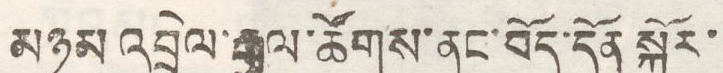མཉམ འབྲེལ་རྒྱལ་ཚོགས་ནང་བོད་དོན་སྐོར་
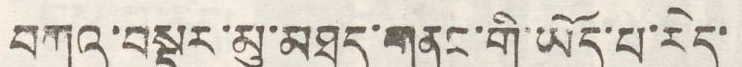བཀའ་བསྡུར་མི་མཐུད་གནང་གི་ཡོད་པ་རེད་
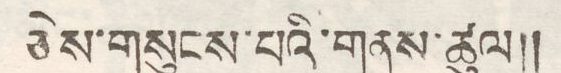ཅེས་གསུངས་པའི་གནས་ཚུལ།།
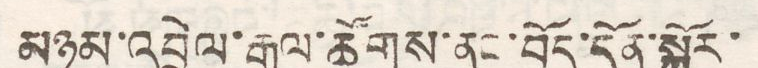མཉམ་འབྲེལ་རྒྱལ་ཚོགས་ནང་བོད་དོན་སྐོར་
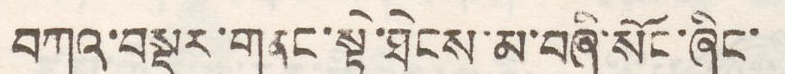བཀའ་བསྡུར་གནང་སྟེ་ཐེངས་མ་བཞི་སོང་ཞིང་
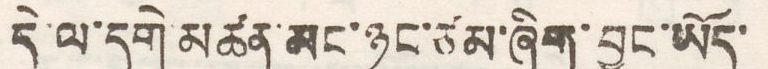དེ་ལ་དགེ་མཚན་མང་ཉུང་ཙམ་ཞིག་བྱུང་ཡོད་
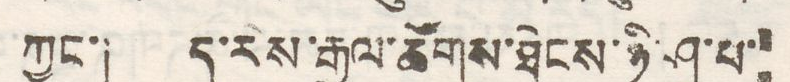ཀྱང་། ད་རེས་རྒྱལ་ཚོགས་ཐེངས་ཉི་ཤུ་པ་
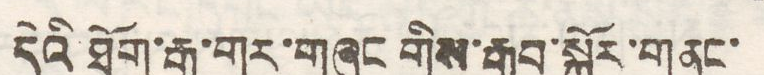དེའི་ཐོག་རྒྱ་གར་གཞུང གིས་རྒྱབ་སྐྱོར་གནང་
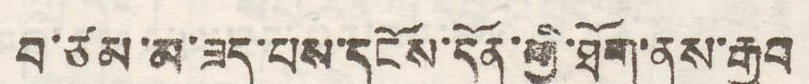བ་ཙམ་མ་ཟད་པས་དངོས་དོན་གྱོ་ཐོག་ནས་རྒྱབ
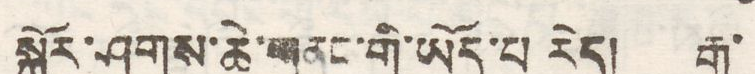སྐྱོར་ཤུགས་ཆེ་གནང་གི་ཡོད་པ རེད། རྒྱ་
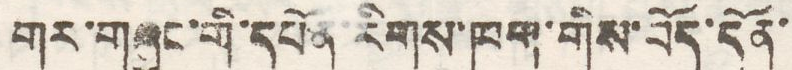གར་གཞུང་གི་དཔོན་རིགས་ཁག་གིས་བོད་དོན་
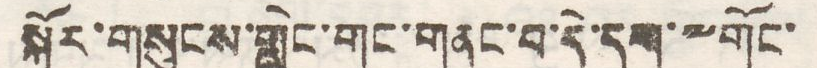སྐོར་གསུངས་གླེང་གང་དནང་བ་དེ་དག་༸གོང་
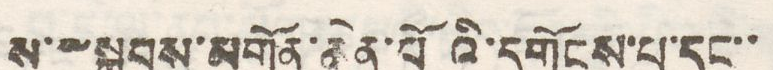ས་༸སྐྱབས་མགོན་ཆེན་པོའི་དགོངས་པ་དང་་
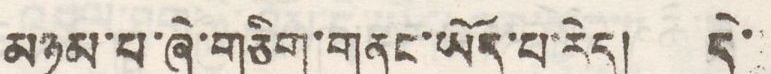མཉམ་པ་ཞེ་གཅིག་གནང་ཡོད་པ་རེད། དེ་
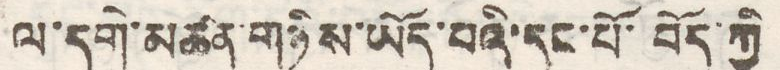ལ་དགེ་མཚན་གཉིས་ཡོད་པའི་དང་པོ་བོད་ཀྱི
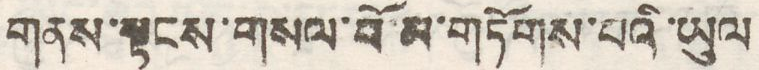གནས་སྟངས་གསལ་བོ་མ་གཏོགས་པའི་ཡུལ
